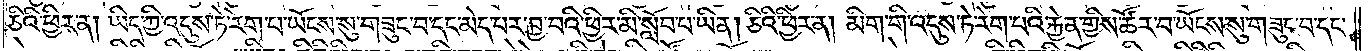ཅིའི་ཕྱིར་ན། ཡིད་ཀྱི་འདུས་ཏེ་རེག་པ་ཡོངས་སུ་གཟུང་བ་དང་མེད་པར་བྱ་བའི་ཕྱིར་མི་སློབ་པ་ཡིན། ཅིའི་ཕྱིར་ན། མིག་གི་འདུས་ཏེ་རེག་པའི་རྐྱེན་གྱིས་ཚོར་བ་ཡོངས་སུ་གཟུང་བ་དང་
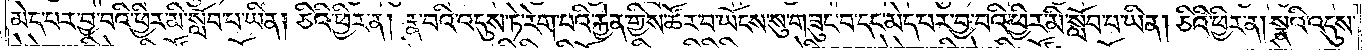མེད་པར་བྱ་བའི་ཕྱིར་མི་སློབ་པ་ཡིན། ཅིའི་ཕྱིར་ན། རྣ་བའི་འདུས་ཏེ་རེག་པའི་རྐྱེན་གྱིས་ཚོར་བ་ཡོངས་སུ་གཟུང་བ་དང་མེད་པར་བྱ་བའི་ཕྱིར་མི་སློབ་པ་ཡིན། ཅིའི་ཕྱིར་ན། སྣའི་འདུས་
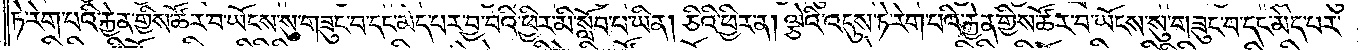ཏེ་རེག་པའི་རྐྱེན་གྱིས་ཚོར་བ་ཡོངས་སུ་གཟུང་བ་དང་མེད་པར་བྱ་བའི་ཕྱིར་མི་སློབ་པ་ཡིན། ཅིའི་ཕྱིར་ན། ལྕེའི་འདུས་ཏེ་རེག་པའི་རྐྱེན་གྱིས་ཚོར་བ་ཡོངས་སུ་གཟུང་བ་དང་མེད་པར་
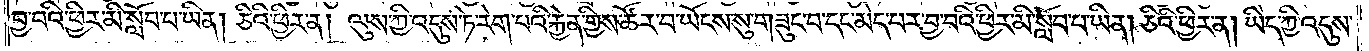བྱ་བའི་ཕྱིར་མི་སློབ་པ་ཡིན། ཅིའི་ཕྱིར་ན། ལུས་ཀྱི་འདུས་ཏེ་རེག་པའི་རྐྱེན་གྱིས་ཚོར་བ་ཡོངས་སུ་གཟུང་བ་དང་མེད་པར་བྱ་བའི་ཕྱིར་མི་སློབ་པ་ཡིན། ཅིའི་ཕྱིར་ན། ཡིད་ཀྱི་འདུས་
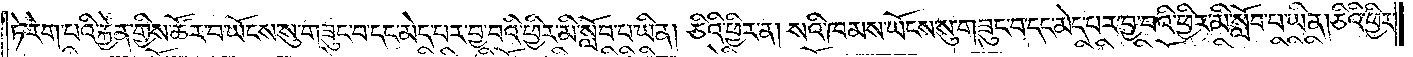ཏེ་རེག་པའི་རྐྱེན་གྱིས་ཚོར་བ་ཡོངས་སུ་གཟུང་བ་དང་མེད་པར་བྱ་བའི་ཕྱིར་མི་སློབ་པ་ཡིན། ཅིའི་ཕྱིར་ན། སའི་ཁམས་ཡོངས་སུ་གཟུང་བ་དང་མེད་པར་བྱ་བའི་ཕྱིར་མི་སློབ་པ་ཡིན། ཅིའི་ཕྱིར་
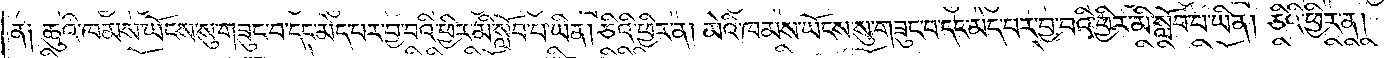ན༑ ཆུའི་ཁམས་ཡོངས་སུ་གཟུང་བ་དང་མེད་པར་བྱ་བའི་ཕྱིར་མི་སློབ་པ་ཡིན། ཅིའི་ཕྱིར་ན། མེའི་ཁམས་ཡོངས་སུ་གཟུང་བ་དང་མེད་པར་བྱ་བའི་ཕྱིར་མི་སློབ་པ་ཡིན། ཅིའི་ཕྱིར་ན།
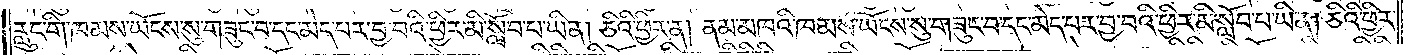རླུང་གི་ཁམས་ཡོངས་སུ་གཟུང་བ་དང་མེད་པར་བྱ་བའི་ཕྱིར་མི་སློབ་པ་ཡིན། ཅིའི་ཕྱིར་ན། ནམ་མཁའི་ཁམས་ཡོངས་སུ་གཟུང་བ་དང་མེད་པར་བྱ་བའི་ཕྱིར་མི་སློབ་པ་ཡིན། ཅིའི་ཕྱིར་
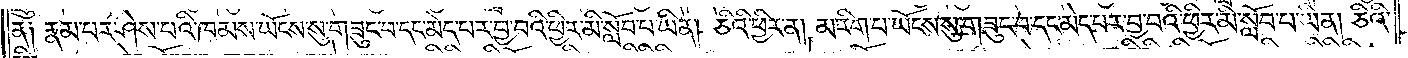ན༑ རྣམ་པར་ཤེས་པའི་ཁམས་ཡོངས་སུ་གཟུང་བ་དང་མེད་པར་བྱ་བའི་ཕྱིར་མི་སློབ་པ་ཡིན། ཅིའི་ཕྱིར་ན། མ་རིག་པ་ཡོངས་སུ་གཟུང་བ་དང་མེད་པར་བྱ་བའི་ཕྱིར་མི་སློབ་པ་ཡིན། ཅིའི་
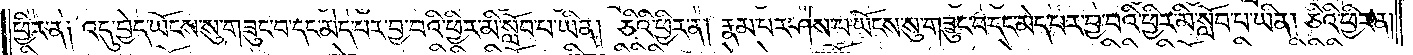ཕྱིར་ན། འདུ་བྱེད་ཡོངས་སུ་གཟུང་བ་དང་མེད་པར་བྱ་བའི་ཕྱིར་མི་སློབ་པ་ཡིན། ཅིའི་ཕྱིར་ན། རྣམ་པར་ཤེས་པ་ཡོངས་སུ་གཟུང་བ་དང་མེད་པར་བྱ་བའི་ཕྱིར་མི་སློབ་པ་ཡིན། ཅིའི་ཕྱིར་ན།
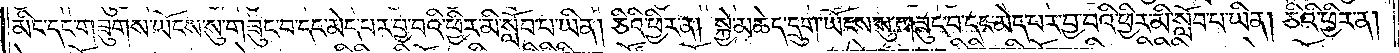མིང་དང་གཟུགས་ཡོངས་སུ་གཟུང་བ་དང་མེད་པར་བྱ་བའི་ཕྱིར་མི་སློབ་པ་ཡིན། ཅིའི་ཕྱིར་ན། སྐྱེ་མཆེད་དྲུག་ཡོངས་སུ་གཟུང་བ་དང་མེད་པར་བྱ་བའི་ཕྱིར་མི་སློབ་པ་ཡིན། ཅིའི་ཕྱིར་ན།
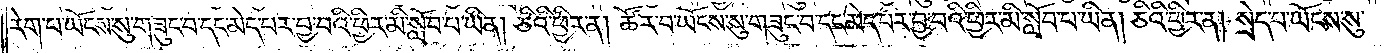རེག་པ་ཡོངས་སུ་གཟུང་བ་དང་མེད་པར་བྱ་བའི་ཕྱིར་མི་སློབ་པ་ཡིན། ཅིའི་ཕྱིར་ན། ཚོར་བ་ཡོངས་སུ་གཟུང་བ་དང་མེད་པར་བྱ་བའི་ཕྱིར་མི་སློབ་པ་ཡིན། ཅིའི་ཕྱིར་ན། སྲེད་པ་ཡོངས་སུ་
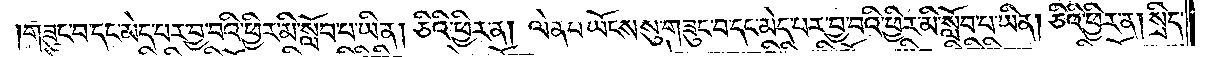གཟུང་བ་དང་མེད་པར་བྱ་བའི་ཕྱིར་མི་སློབ་པ་ཡིན། ཅིའི་ཕྱིར་ན། ལེན་པ་ཡོངས་སུ་གཟུང་བ་དང་མེད་པར་བྱ་བའི་ཕྱིར་མི་སློབ་པ་ཡིན། ཅིའི་ཕྱིར་ན། སྲིད་
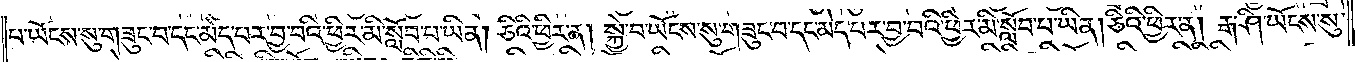པ་ཡོངས་སུ་གཟུང་བ་དང་མེད་པར་བྱ་བའི་ཕྱིར་མི་སློབ་པ་ཡིན། ཅིའི་ཕྱིར་ན། སྐྱེ་བ་ཡོངས་སུ་གཟུང་བ་དང་མེད་པར་བྱ་བའི་ཕྱིར་མི་སློབ་པ་ཡིན། ཅིའི་ཕྱིར་ན། རྒ་ཤི་ཡོངས་སུ་
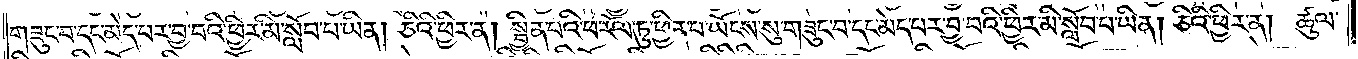གཟུང་བ་དང་མེད་པར་བྱ་བའི་ཕྱིར་མི་སློབ་པ་ཡིན། ཅིའི་ཕྱིར་ན། སྦྱིན་པའི་ཕ་རོལ་ཏུ་ཕྱིན་པ་ཡོངས་སུ་གཟུང་བ་དང་མེད་པར་བྱ་བའི་ཕྱིར་མི་སློབ་པ་ཡིན། ཅིའི་ཕྱིར་ན། ཚུལ་
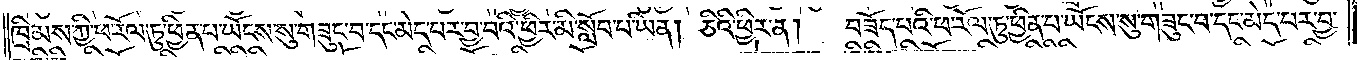ཁྲིམས་ཀྱི་ཕ་རོལ་ཏུ་ཕྱིན་པ་ཡོངས་སུ་གཟུང་བ་དང་མེད་པར་བྱ་བའི་ཕྱིར་མི་སློབ་པ་ཡིན། ཅིའི་ཕྱིར་ན། བཟོད་པའི་ཕ་རོལ་ཏུ་ཕྱིན་པ་ཡོངས་སུ་གཟུང་བ་དང་མེད་པར་བྱ་
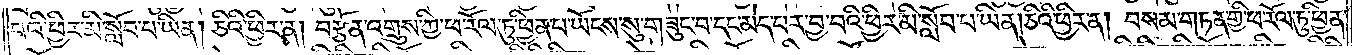བའི་ཕྱིར་མི་སློབ་པ་ཡིན། ཅིའི་ཕྱིར་ན། བརྩོན་འགྲུས་ཀྱི་ཕ་རོལ་ཏུ་ཕྱིན་པ་ཡོངས་སུ་གཟུང་བ་དང་མེད་པར་བྱ་བའི་ཕྱིར་མི་སློབ་པ་ཡིན། ཅིའི་ཕྱིར་ན། བསམ་གཏན་གྱི་ཕ་རོལ་ཏུ་ཕྱིན་
